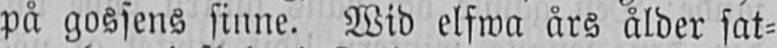på gossens sinne. Wid elfwa års ålder sat-
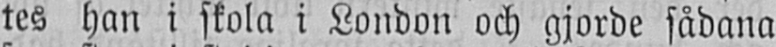tes han i skola i London och gjorde sådana
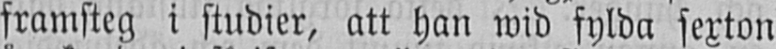framsteg i studier, att han wid fylda sexton
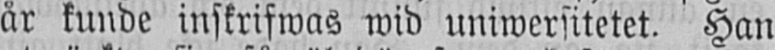år kunde inskrifwas wid uniwersitetet. Han
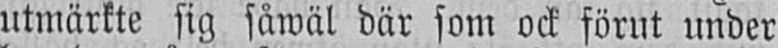utmärkte sig såwäl där som ock förut under
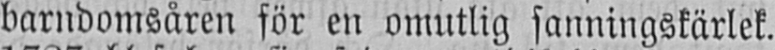barndomsåren för en omutlig sanningskärlek.
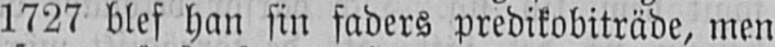1727 blef han sin faders predikobiträde, men
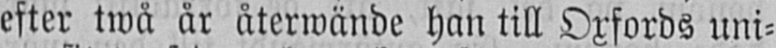efter twå år återwände han till Oxfords uni-
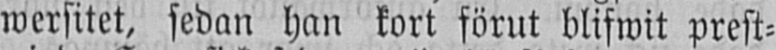wersitet, sedan han kort förut blifwit prest-
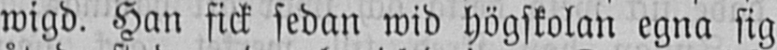wigd. Han fick sedan wid högskolan egna sig
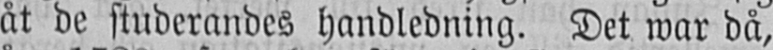åt de studerandes handledning. Det war då,
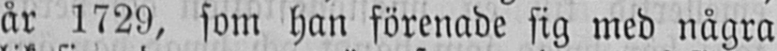år 1729, som han förenade sig med några
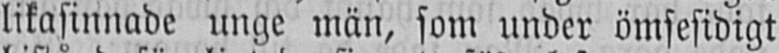likasinnade unge män, som under ömsesidigt
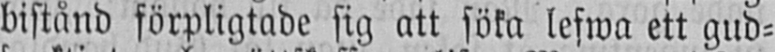bistånd förpligtade sig att söka lefwa ett gud-
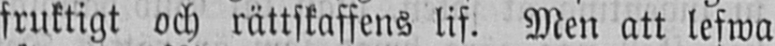fruktigt och rättskaffens lif. Men att lefwa
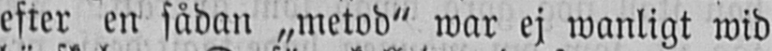efter en sådan „metod" war ej wanligt wid
